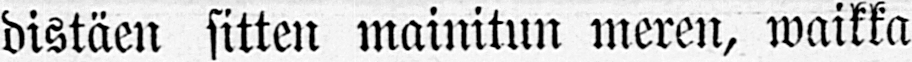distäen sitten mainitun meren, waikka
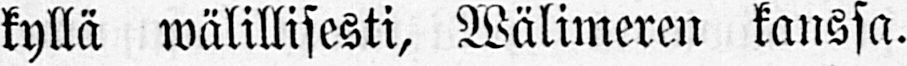kyllä wälillisesti Wälimeren kanssa.
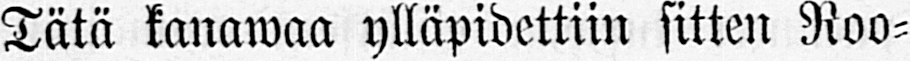Tätä kanawaa ylläpidettiin sitten Roo-
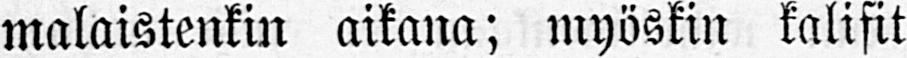malaistenkin aikana; myöskin kalifit
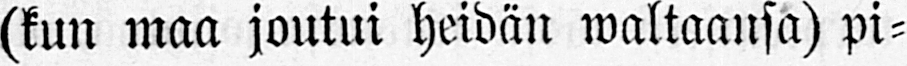(kun maa joutui heidän waltaansa) pi-
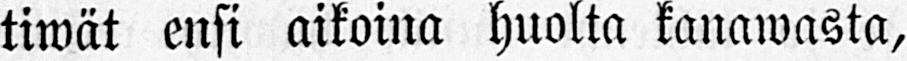tiwät ensi aikoina huolta kanawasta,
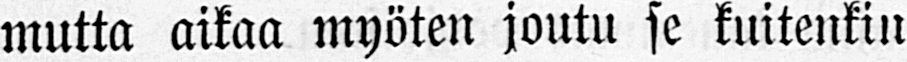mutta aikaa myöten joutu se kuitenkin
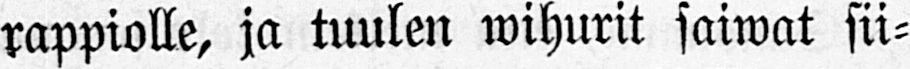rappiolle, ja tuulen wihurit saiwat sii-
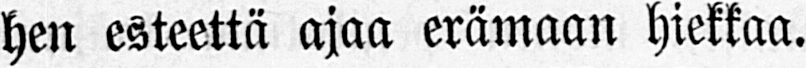hen esteettä ajaa erämaan hiekkaa.
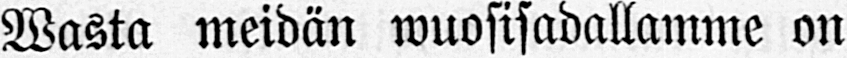Wasta meidän wuosisadallamme on
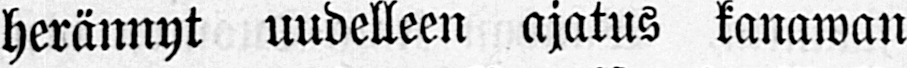herännyt uudelleen ajatus kanawan
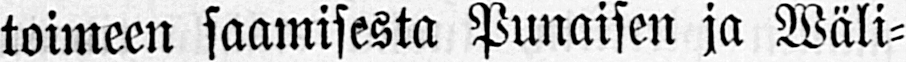toimeen saamisesta Punaisen ja Wäli-
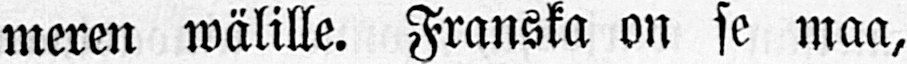meren wälille. Franska on se maa,
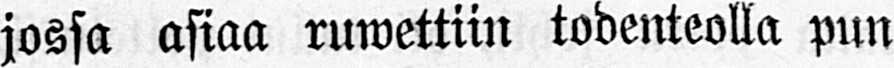jossa asiaa ruwettiin todenteolla pun
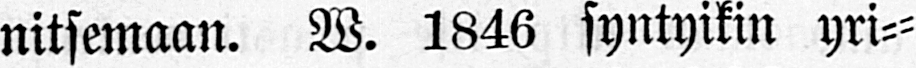nitsemaan. W. 1846 syntyikin yri-
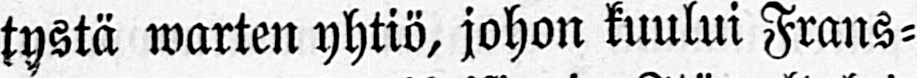tystä warten yhtiö, johon kuului Frans-
